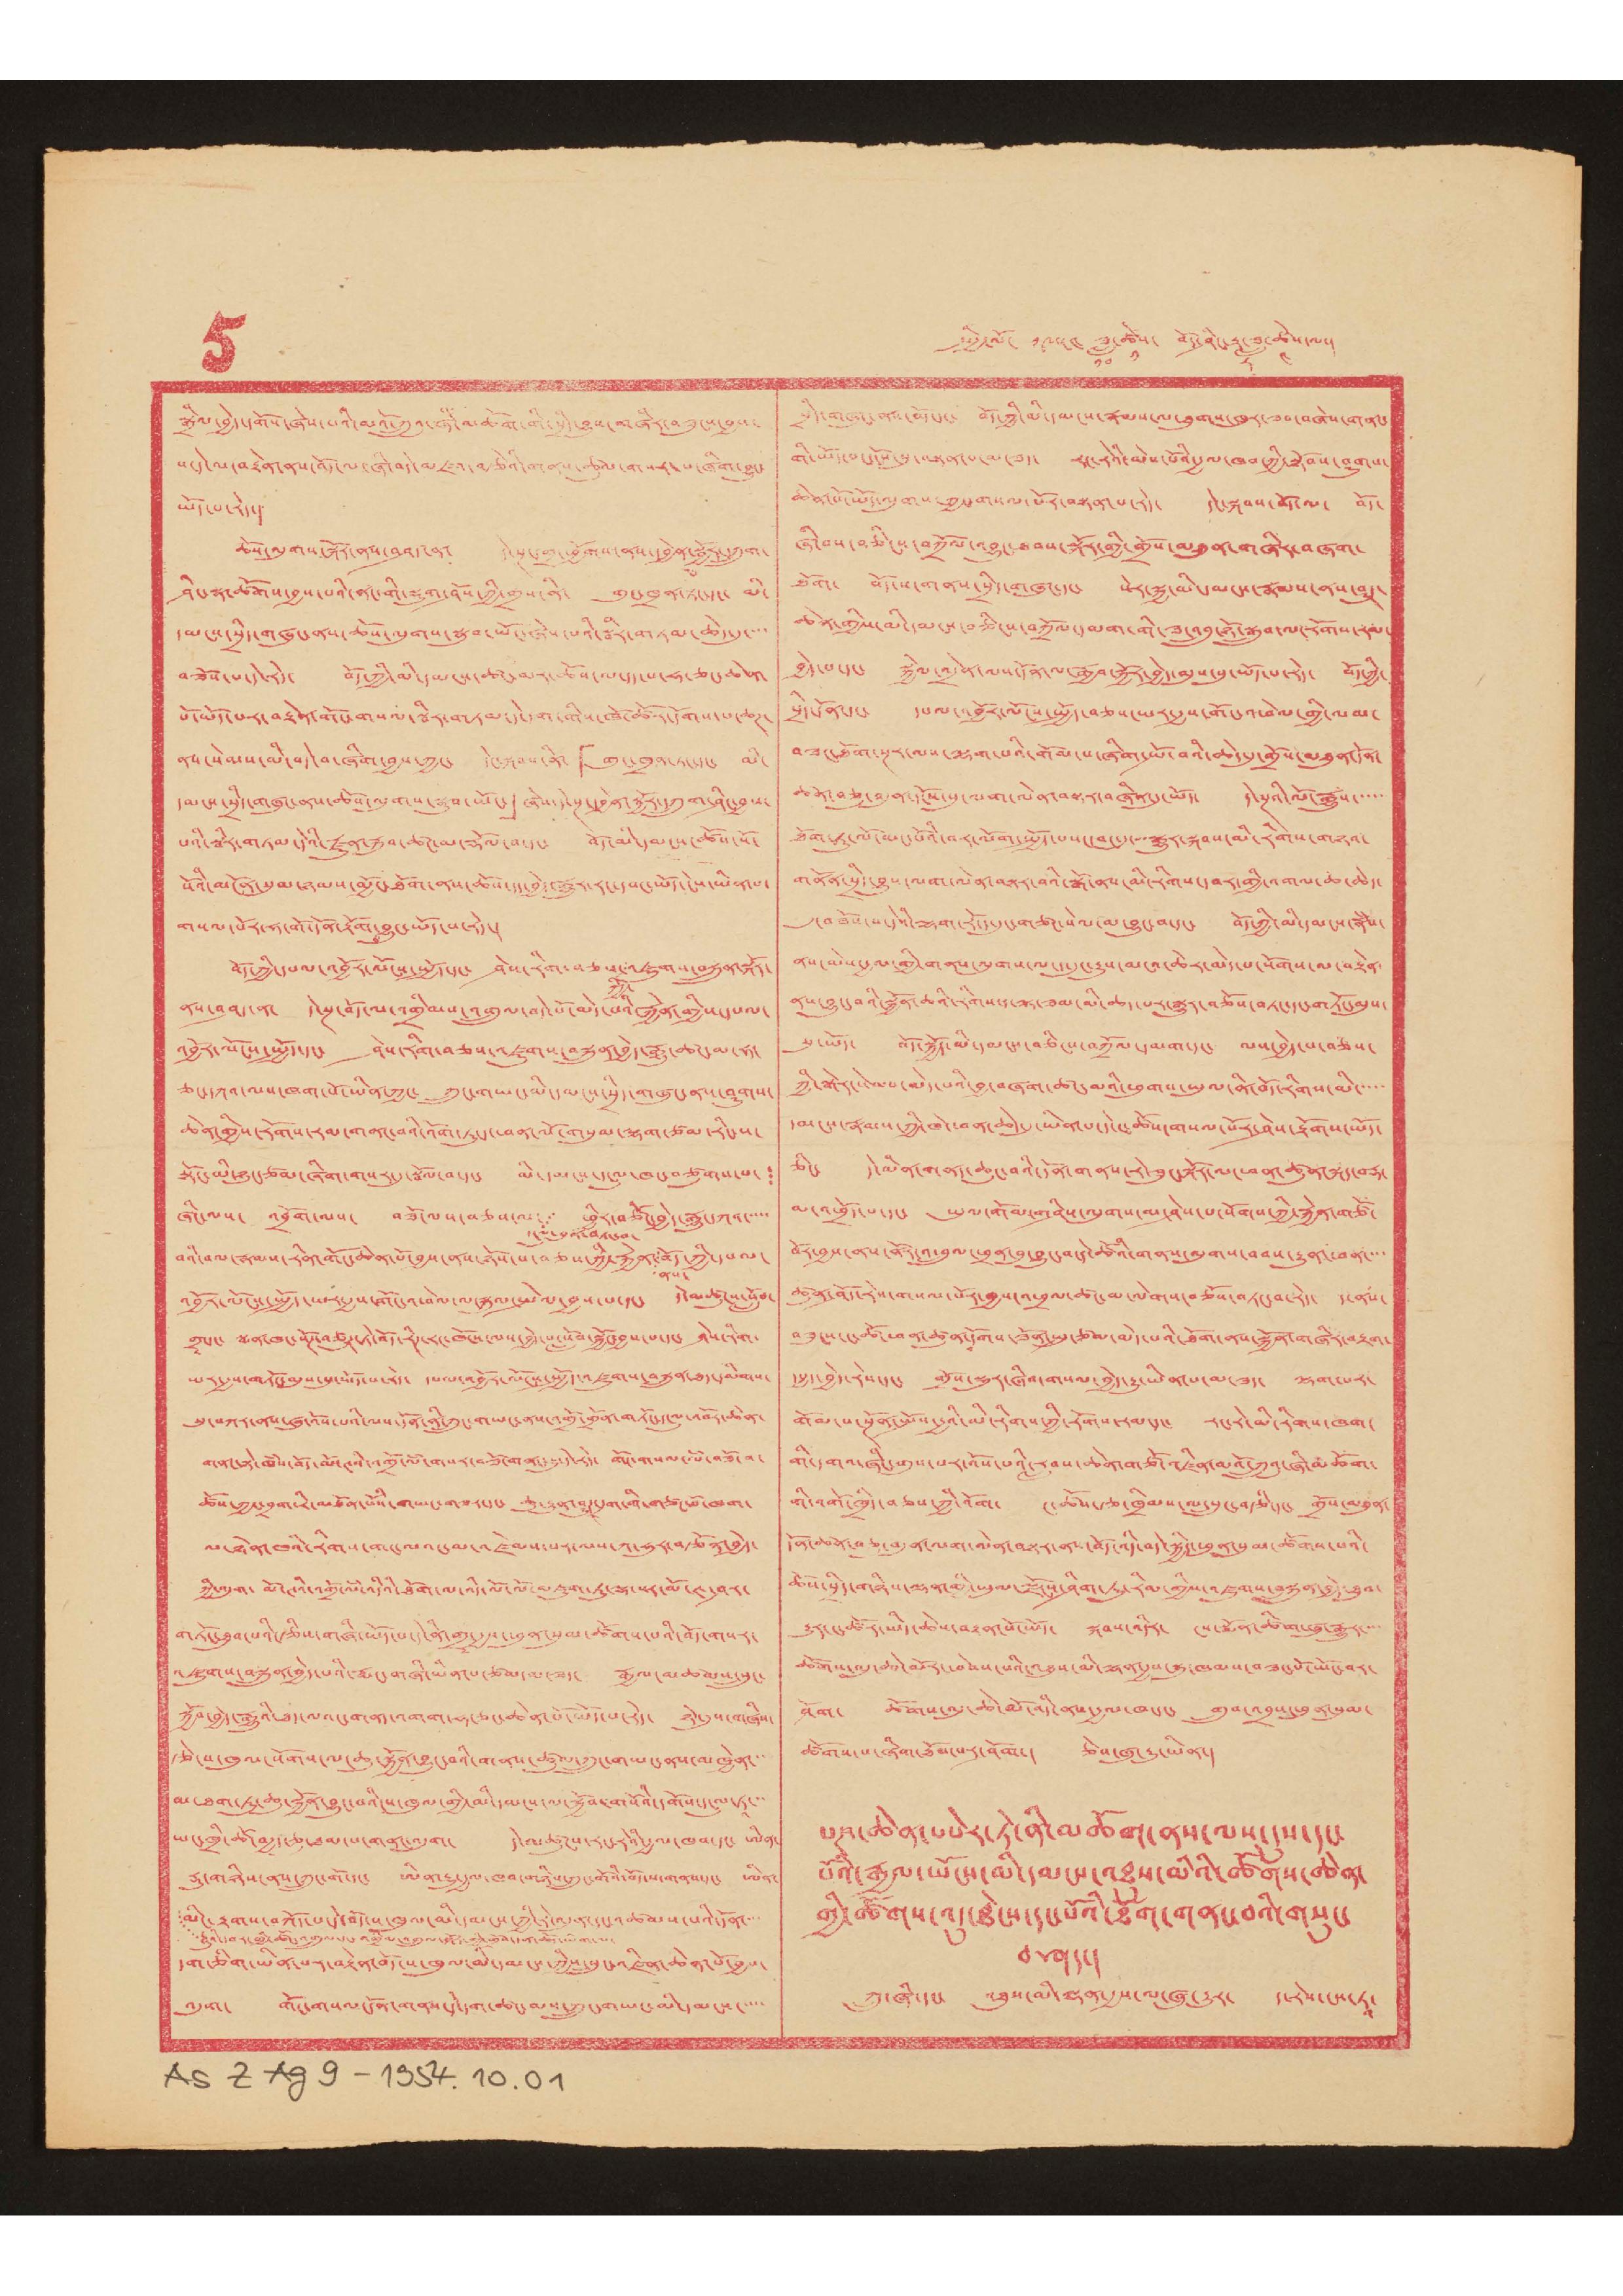5 སྤྱི་ལོ་ ༡༩༥༤ ཟླ་
༡༠
ཚེས་
༡
བོད་ཤིང་རྟ་ཟླ་
༨
ཚེས་
༤
ལ་།
སྒྲིལ་བྱེད་དགོས་ཞེས་པའི་མོའོ་ཀྲུའུ་ཞི་མཆོག་གི་སྲིད་བྱུས་བཞིར་བཟུངས་བྱས་
པ་དེ་ལ་བརྟེན་ནས་བོད་ལ་ཞི་བདེ་མཛའ་བརྩེའི་གནས་ཚུལ་གསར་པ་ཞིག་བྱུང་
ཡོད་པ་རེད་།
ཆོས་ལུགས་སྐོར་ནས་བཤད་ན་ དེ་སྔ་གྲ་ཕྱོགས་ནས་དབྱེན་སྦྱོར་དཀྲུག་
ཤིང་སྣ་ཚོགས་བྱས་པའི་ནང་གི་སྡུག་ཤོས་ཀྱི་གྲས་ནི་ གུང་ཁྲན་ཏང་དང་ མི་
དམངས་སྲིད་གཞུང་ནས་ཆོས་ལུགས་སྣུབ་ཡོང་ཞེས་པའི་སྦིར་གཏམ་ཆེད་དུ་་་་
བཟོས་པ་དེ་རེད་ བོད་ཀྱི་མི་དམངས་ཚང་མར་ཆོས་ལ་དད་པ་ཧ་ཅང་ཆེན་
པོ་ཡོད་པར་བརྟེན་གོང་གསལ་སྦིར་གཏམ་དེ་དག་གིས་ཁོ་ཚོར་དོག་པ་ཆཊ་
ནས་སེམས་མི་བདེ་བ་ཞིག་བྱས་ཀྱང་ དེང་སྐབས་ནི་「གུང་ཁྲན་ཏང་དང་ མི་
དམངས་སྲིད་གཞུང་ནས་ཆོས་ལུགས་སྒྲུབ་ཡོང་」 ཞེས་དེ་སྔ་དབྱེན་སྦྱོར་དཀྲུག་ཤིང་བྱས་
པའི་སྦིར་གཏམ་དེའི་རྫུན་རྐུབ་ཚང་མ་རྡོལ་བ་དང་ བོད་མི་དམངས་ཚོས་སོ་
སོའི་མངོན་སུམ་ཉམས་མྱོང་ཐོག་ནས་ཆོས་དད་བྱེད་རྒྱུར་རང་དབང་ཡོད་ངེས་ཡིན་པ་
གསལ་པོར་ཧ་གོ་དོན་རྟོགས་བྱུང་ཡོད་པ་རེད་།
བོད་ཀྱི་དཔལ་འབྱོར་ལོངས་སྤྱོད་དང་ ཤེས་རིག་བཅས་
ཀྱི་
འཛུགས་བསྐྲུན་སྐོར་
ནས་བཤད་ན་ དེ་སྔ་བོད་ལ་འགྲིམས་འགྲུལ་བདེ་པོ་མེད་པའི་རྐྱེན་གྱིས་དཔལ་
འབྱོར་ལོངས་སྤྱོད་དང་ ཤེས་རིག་བཅས་འཛུགས་བསྐྲུན་བྱེད་རྒྱུ་ཚང་མ་ཧ་
ཅང་དཀའ་ལས་ཁག་པོ་ཡིན་ཀྱང་ ཀྲུང་གཡང་མི་དམངས་སྲིད་གཞུང་ནས་ཤུགས་
ཆེན་གྱིས་རོགས་རམ་གནང་བའི་འོག་ཏུ་ད་ཕན་ལོ་གསུམ་ལྷག་ཙམ་རིང་ས་
སྟོང་མི་ཉུང་ཙམ་ཞིག་གསར་དུ་སྦོལ་བ་དང་ མི་དམངས་དངུལ་ཁང་བཙུགས་པ་
ཞིང་ལས་ འབྲོག་ལས་ བཟོ་ལས་བཅས་ལ་
དངུལ་བུན་བཏང་བ་
ཕྱིར་བཙོང་བྱེད་རྒྱུ་དཀའ་་་་་
བའི་བལ་རྣམས་རིན་གོང་ཆེན་པོ་བྱས་ནས་ཉོས་པ་བཅས་ཀྱི་རྐྱེན་
ནས་
བོད་ཀྱི་དཔལ་
འབྱོར་ལོངས་སྤྱོད་ཡར་རྒྱས་གོང་འཕེལ་ལ་སྐུལ་སྤེལ་བྱས་པ་དང་ དེ་མཚུངས་སློབ་
གྲྭ་དང་ སྨན་ཁང་སོཊ་བཙུཊ་ཏེ་བོད་རིཊ་རང་ཁོངས་ལས་བྱེད་པ་སློབ་སྐྱོང་བྱས་པ་དང་ ཤེས་རིག་
ཡར་རྒྱས་གཏོང་མུས་སུ་ཡོད་པ་རེད་ དཔལ་འབྱོར་ལོངས་སྤྱོད་འཛུགས་བསྐྲུན་ཐད་དམིགས་
སུ་བཀར་ནས་ཞུ་འོས་པའི་ལས་དོན་ནི་ཀྲུང་གཡང་ནས་འགྲོ་གྲོན་གཏོང་དངུལ་འབོར་ཆེན་
གནང་སྟེ་ཁཾས་བོད་མོ་ཊའི་འགྲོ་ལམ་གསར་བཟོ་གནང་སུ་དེ་རེད་ གོང་གསལ་ལཾ་བཟོ་བ་
ཚོས་ཀྱང་བྲག་རི་མཐོན་པོའི་གཡང་གཟར་དང་ ཆུ་རྒྱུན་ཤུཊ་དྲག་གི་གཙང་པོ་ཁག་
ལ་ཉེན་ཁའི་རིགས་གང་ལའང་མ་འཛེམས་པར་ལས་ཀ་ཧུར་བརྩོན་བྱེད་
ཀྱི་འདུག་ མོ་ཊའི་འགྲོ་ལཾ་འདིའི་ཐོག་ལ་འདི་ལོ་མཇུག་ཏུ་ལྷ་སར་མོ་ཊ་ཤར་
གཏོང་ཐུབ་པའི་རྩིས་གཞི་ཡོད་པ་དེ་ནི་གྲྭ་རྒྱབ་ཕུན་སུམ་ཚོགས་པའི་བོད་གསར་
འཛུགས་བསྐྲུན་བྱེད་པའི་རྨང་གཞི་ཡིན་པ་ཙམ་མ་ཟད་ རྒྱལ་མཚམས་སྲུང་
སྐྱོབ་བྱེད་རྒྱུའི་ཐད་ལའང་གནད་འགག་ཧ་ཅང་ཆེན་པོ་ཡོད་པ་རེད་ ཉེ་དུས་གཞིས་
རྩེ་ས་ཁུལ་སོགས་ལ་ཆུ་སྐྱོན་བྱུང་བའི་གནས་ཚུལ་ཀྲུང་གཡང་ནས་མཁྱེན་་་
མ་ཐག་ཏུ་ཆུ་སྐྱོན་བྱུང་བའི་ས་ཁུལ་གྱི་མི་དམངས་ལ་སྐྱོབ་གསོའི་དགོས་དངུལ་ཏཱ་་་
ཡང་ཁྲི་ཚོ་བརྒྱད་ཅུ་ཐམ་པ་གནང་འདུག་ དེ་མཚུངས་རང་རེའི་རྒྱལ་ཁབ་དང་ ཨིན་
རྡུ་གཉིས་ནས་ཀྲུང་གོ་དང་ ཨིན་རྡུ་རྒྱལ་ཁབ་གཉིས་ཀྲུང་གོའི་བོད་ས་གནས་དང་ ཨིན་
རྡུའི་བར་གྱི་ཚོང་འགྲུལ་དང་འགྲིམ་འགྲུལ་སྐོར་གྱི་གྲོས་དོན་ཚོགས་ཡིག་ལ་
མིང་རྟགས་བཀོད་པ་དེ་བོད་པ་ཁུལ་མི་དམངས་ཀྱི་རེ་འདུན་དང་འཚམས་པའི་དོན་་་་
དག་ཅིག་ཡིན་པར་བརྟེན་བོད་ས་ཁུལ་མི་དམངས་ཀྱིས་དཔུང་འཛིན་ཆེན་པོ་བྱས་
འདུག་ གོང་གསལ་དོན་གནས་དེ་དག་ཚང་མས་ཀྲུང་གཡང་མི་དམངས་་་་་
སྲིད་གཞུང་ནས་བོད་དང་ བོད་ཀྱི་མི་དམངས་རྣམས་ལ་ཐུགས་ཁུར་ཟབ་བཞེས་གནང་
གི་ཡོད་པ་དངོས་སུ་བསྟན་པ་མ་ཟད་ རང་རེའི་མེས་པོའི་རྒྱལ་ཁབ་ཀྱི་སྟོབས་ཤུགས་
ཆེན་པོ་ཡོད་ལུགས་ཀྱང་གསལ་པོར་བསྟན་པ་རེད་ དེང་སྐབས་བོད་ལ་ བོད་
ཞི་བས་བཅིངས་བཀྲོལ་འབྱུང་ཐབས་སྐོར་གྱི་གྲོས་མཐུན་གཞིར་བཞག་
ཐོག་ བོད་ས་གནས་སྲིད་གཞུང་དང་ སེར་སྐྱ་མི་དམངས་རྣམས་ནས་ཤུཊ་
ཆེན་གྱིས་མི་དམངས་བཅིངས་བཀྲོལ་དམག་གི་ཟ་འབྲུ་ཉོ་སྒྲུབ་ལ་རོགས་རམ་
བྱེད་པ་དང་ སྐྱེལ་འདྲེན་ལས་དོན་ལ་རྒྱབ་སྐྱོར་བྱེད་མུས་སུ་ཡོད་པ་རེད་ བོད་ཀྱི་
སྲིད་དོན་དང་ དཔལ་འབྱོར་ལོངས་སྤྱོད་བཅས་ཡར་རྒྱས་གོང་འཕེལ་གྱི་ལམ་
བཟང་ཐོག་སྔར་ལས་ལྷག་པའི་གོམ་པ་ཞིག་སྤོ་བའི་ཆེད་དུ་གྲོས་མཐུན་དོན་
ཚན་བཅུ་བདུན་དངོས་སུ་ལག་ལེན་བསྟར་བཞིན་དུ་ཡོད་ དེ་སྔའི་ལོ་རྒྱུས་་་་་
ཐོག་ཏུ་ལོ་མང་པོའི་བར་ལོག་སྤྱོད་པས་དབང་དུ་་་སྒྱུར་སྐབས་མི་རིགས་གཉའ་
གནོན་སྲིད་བྱུས་ལག་ལེན་བསྟར་བའི་སྒོ་ནས་མི་རིགས་དབར་གྱི་འགལ་ཆ་ཆེད་
དུ་བཟོས་པ་དེའི་ལྷག་རོ་ད་དུང་གཙང་སེལ་མ་བྱུང་བ་དང་ བོད་ཀྱི་མི་དམངས་རྣཾས་
ནས་མེས་རྒྱལ་གྱི་གནས་ལུགས་ལ་ད་དུང་རྒྱུས་མངའ་ཆེར་མེད་པ་སོགས་ལ་བརྟེན་
ནས་བྱུང་བའི་སྐྱོན་ཆའི་རིགས་ད་ལྟ་ཟམ་མི་ཆད་པར་སྒྱུར་བཅོས་བཏང་དང་གཏོང་མུས་
སུ་ཡོད་ བོད་སྐྱོད་མི་དམངས་བཅིངས་བཀྲོལ་དམག་དང་ ལས་བྱེད་པ་བཅས་
ཀྱི་སྒེར་སེམས་མེད་པའི་བྱ་བཞག་ཚང་མའི་ཕུགས་ཡུལ་ནི་བོད་རིགས་མི་་་་་
དམངས་རྣམས་ཀྱི་ཁེ་ཕན་ཆེད་དུ་ཡིན་པ་དེ་ང་ཚོས་གསལ་པོར་ཤེས་རྟོགས་ཡོད་
ཅིང་ དེ་མིན་གནད་ཆུང་བའི་དོན་གནས་རེ་ཟུང་སྐོར་ལ་ཕན་ཚུན་སྐད་བརྡ་
མ་འཕྲོད་པ་དང་ ཡུལ་གོམ་གཤིས་ལུགས་མ་ཤེས་པ་སོགས་ཀྱི་རྐྱེན་གཙོ་
བོར་བྱས་ནས་ནོར་འཕྲུལ་ཕྲནན་བུ་བྱུང་བ་དེ་ཚོའི་གནས་ལུགས་བསམ་རྒྱུན་ཕན་་་་
ཚུན་ཤོད་རེས་གསལ་པོར་བྱས་འཕྲལ་ཚང་མ་ལེགས་བཅོས་བཏང་བ་རེད་ ད་ནས་
བཟུངས་ང་ཚོ་ཕན་ཚུན་དྭོགས་ཟོན་སྤུ་ཙམ་མེད་པའི་ཐོག་ནས་སྐྱོན་གཞིར་བརྟག་
དཔྱད་བྱེད་རེས་དང་ གྲོས་སྡུར་ཞིབ་གསལ་བྱེད་རྒྱུ་ཡིན་པ་མ་ཟད་ ལྷག་པར་
གོམ་པ་སྔོན་སྤོས་རྒྱའི་མི་རིགས་ཀྱི་རོགས་རམ་དང་ རང་རེ་མི་རིགས་ཁག་
གི་དགའ་ཞིང་གུས་པར་འོས་པའི་རླབས་ཆེན་གཙོ་འཛིན་མའོ་ཀྲུའུ་ཞི་མཆོག་
གི་འགོ་ཁྲིད་བཅས་ཀྱི་འོག་ ང་ཚོས་རྩ་ཁྲིམས་ལ་སྲུང་བརྩི་དང་ གྲོས་མཐུན་
དོན་ཆེན་བཅུ་བདུན་ལག་ལེན་བསྟར་ནས་བོད་འདི་བདེ་སྐྱིད་ཕུན་སུམ་ཚོགས་པའི་
ཆོས་སྲིད་གཉིས་ལྡན་གྱི་ཡུལ་ལྗོངས་ཤིག་ཏུ་རིམ་གྱིས་འཛུགས་བསྐྲུན་བྱེད་ཐུབ་
རྒྱུར་ང་ཚོར་ཡིད་ཆེས་བརྟན་པོ་ཡོད་ སྐབས་འདིར་ ངས་སྨོན་ཚིགས་ཕུལ་རྒྱུར་་་་
ཚོགས་འདུ་ཆེ་མོར་ཕེབས་པའི་འཐུས་མི་ལྷན་རྒྱས་སྐུ་ཁམས་བཟང་པོ་ཡོང་བར་
ཤོག་ ཚོགས་འདུ་ཆེ་མོ་འདི་ནས་རྒྱལ་ཁ་དང་ གྲུབ་འབྲས་ཕུན་སུམ་
ཚོགས་པ་ཞིག་ཐོབ་པར་ཤོག་། ཅེས་ཞུ་རྒྱུ་ཡིན་།
པཎ་ཆེན་ཨེར་ཏེ་ནི་མཆོག་ནས་ལས་དུས་དང་
པོའི་རྒྱལ་ཡོངས་མི་དམངས་འཐུས་མིའི་ཚོགས་ཆེན་
གྱི་ཚོགས་འདུ་ཐེངས་དང་པོའི་ཐོག་གནང་བའི་གསུང་
བཤད་།
ཀྲུ་ཞི་དང་ འཐུས་མི་ལྷན་རྒྱས་ལ་ཞུ་རྒྱུར་ ད་རེས་ངས་ཏཱ་
